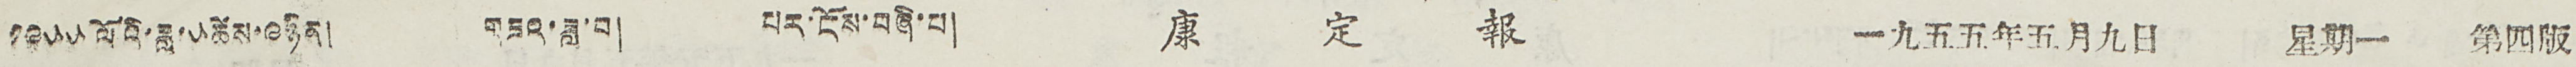༡༩༥༥ལོའི་ཟླ་༥ཚེས་༩ཉིན། གཟའ་ཟླ་བ། པར་ངོས་བཞི་པ། 康 定 報 一九五五年五月九日 星期一 第四版
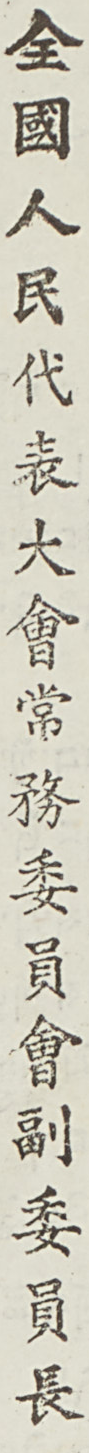全國人民代表大會常務委員會劉委員長
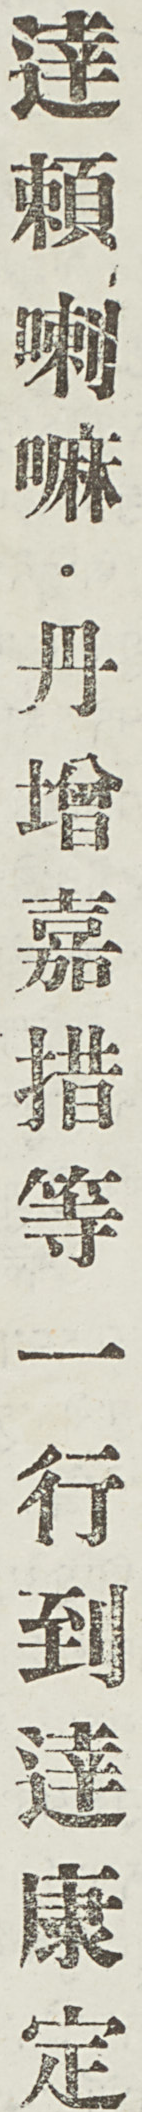達賴喇嘛・丹增嘉措等一行到達康定
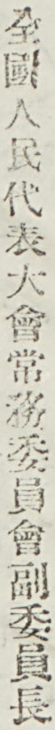全國人民代表大會常務委員會副委員長
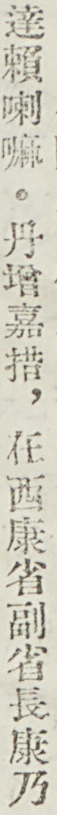達賴喇嘛・丹增嘉措，在西康省副省長康乃
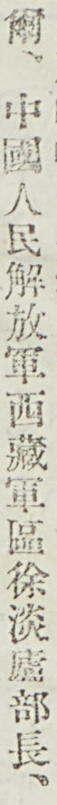爾、中國人民解放軍西藏軍區徐淡廬部長、
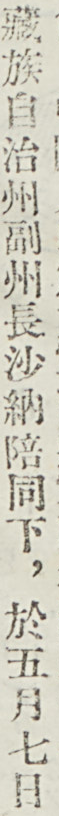藏族自治州副州長沙納陪同下，於五月七日
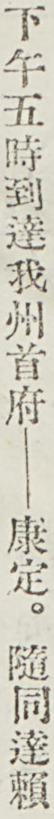下午五時到達我州首府——康定。隨同達賴
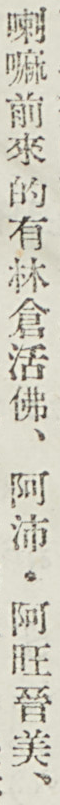喇嘛前來的有林倉活佛、阿沛・阿旺晉美、
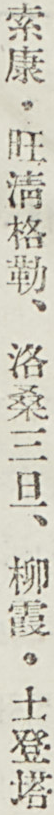索康・旺清格勒、洛桑三旦、柳霞・土登塔
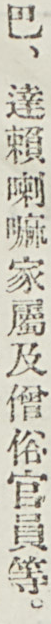巴、達賴喇嘛家屬及僧俗官員等。
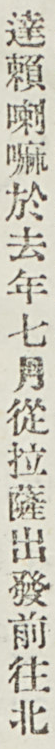達賴喇嘛於去年起月從拉薩出發前往北
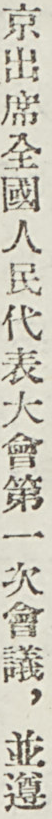京出席全國人民代表大會第一次會議，並遵
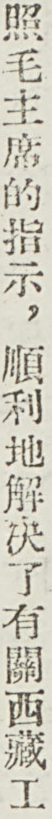照毛主席的指示，順利地解決了有關西藏工
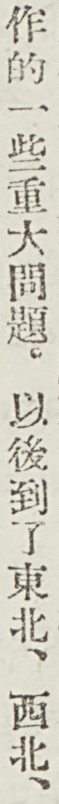作的一些重大問題。以後到了東北、西北、
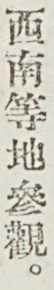西南等地參觀。
